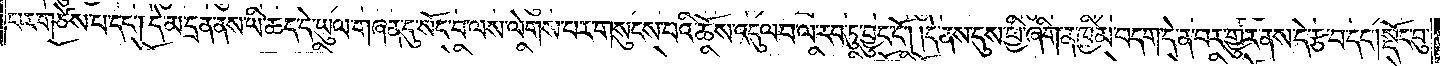པར་གཙེས་པ་དང༌། དེ་མ་དྲན་ནས་ཡི་ཆད་དེ་ཡུལ་གཞན་དུ་སོང་བ་ལས་ལེགས་པར་གསུངས་པའི་ཆོས་འདུལ་བ་ལ་རབ་ཏུ་བྱུང་ངོ༌། །དེ་ནས་དུས་ཕྱི་ཞིག་ན་ཁྱིམ་བདག་དེ་ན་བར་གྱུར་ནས་དེ་རྩ་བ་དང༌། སྡོང་བུ་
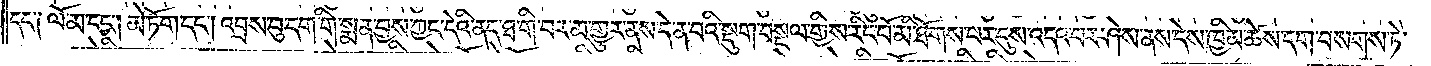དང་༑ ལོ་མ་དང༌། མེ་ཏོག་དང༌། འབྲས་བུ་དག་གི་སྨན་བྱས་ཀྱང་དེའི་ནད་ཐ་གི་བར་མ་གྱུར་ནས་དེ་ན་བའི་སྡུག་བསྔལ་གྱིས་རིང་པོ་མི་ཐོགས་པར་དུས་འདའ་བར་ཤེས་ནས་དེས་ཁྱིམ་ཚེས་དག་བསགས་ཏེ་
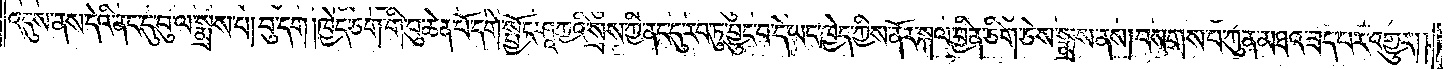འདུས་ནས་དེའི་ནང་དུ་བུ་ལ་སྨྲས་པ། བུ་དག །ཁྱེད་ཅག་གི་བུ་ཆེན་པོ་དགེ་སྦྱོང་ཤཱཀྱའི་སྲས་ཀྱི་ནང་དུ་རབ་ཏུ་བྱུང་བ་དེ་ཡང་ཁྱེད་ཀྱིས་ནོར་སྐལ་བྱིན་ཅིག་ཅེས་སྨྲས་ནས། བསགས་པ་ཀུན་མཐའ་ཟད་པར་འགྱུར། །
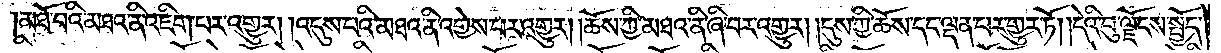མཐོ་བའི་མཐའ་ནི་འཇིག་པར་འགྱུར། །འདུས་པའི་མཐའ་ནི་འགྱེས་པར་འགྱུར། །ཆོས་ཀྱི་མཐའ་ནི་ཞི་བར་འགྱུར། །དུས་ཀྱི་ཆོས་དང་ལྡན་པར་གྱུར་ཏོ། །དེའི་བུ་ལྗོངས་སྤྱོད་
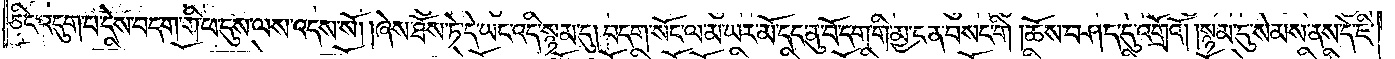ཅིང་འདུག་པ་དེས་བདག་གི་ཕ་དུས་ལས་འདས་སོ། །ཞེས་ཐོས་ཏེ་དེ་ཡང་འདི་སྙམ་དུ། བདག་སོང་ལ་མ་ཡར་མོ་དང་ནུ་བོ་དག་གི་མྱ་ངན་བསང་གི །ཆོས་བཤད་དུ་འགྲོའོ། །སྙམ་དུ་སེམས་ནས་དེ་ཇི་
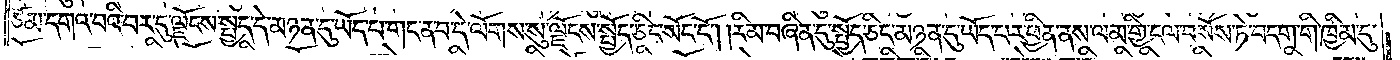ཙམ་དགའ་བའི་བར་དུ་ལྗོངས་སྤྱད་དེ་མཉན་དུ་ཡོད་པ་གང་ན་བ་དེ་ལོགས་སུ་ལྗོངས་སྤྱོད་ཅིང་སོང་ངོ༌། །རིམ་བཞིན་དུ་སྤྱོད་ཅིང་མཉན་དུ་ཡོད་པར་ཕྱིན་ནས་ལམ་གྱི་ངལ་བསོས་ཏེ་བདག་གི་ཁྱིམ་དུ་
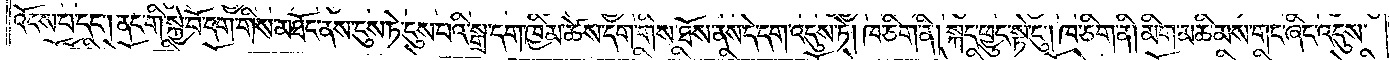འོངས་པ་དང༌། ནང་གི་སྐྱེ་བོ་དག་གིས་མཐོང་ནས་ངུས་ཏེ་དུས་པའི་སྒྲ་དག་ཁྱིམ་ཚེས་དག་གིས་ཐོས་ནས་དེ་དག་འདུས་ཏེ། ཁ་ཅིག་ནི། སྐད་ཕྱུང་སྟེ་ངུ༌། །ཁ་ཅིག་ནི། མིག་མཆི་མས་གང་ཞིང་འདུས་
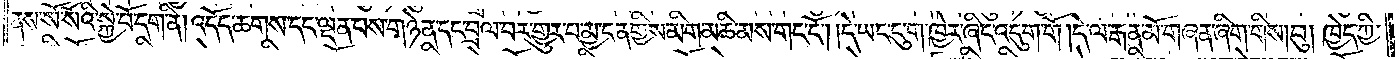ནས་སོ་སོའི་སྐྱེ་བོ་དག་ནི། འདོད་ཆགས་དང་ལྡན་པས་གཉེན་དང་བྲལ་བར་གྱུར་པ་མྱ་ངན་གྱིས་མིག་མཆི་མས་གང་ངོ༌། །དེ་ཡང་དུ་ག་ཁྱེར་ཞིང་འདུག་གོ །དེ་ལ་རྒན་མོ་གཞན་ཞིག་གིས། བུ། ཁྱེད་ཀྱི་
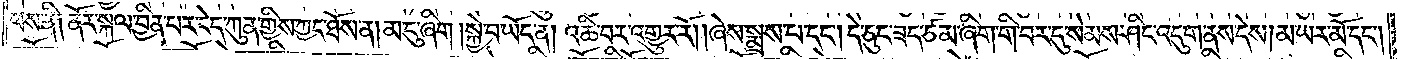ཕས་ནི༑ ནོར་སྐལ་བྱིན་པར་ངེད་ཀུན་གྱིས་ཀྱང་ཐོས་ན། མ་ངུ་ཞིག །སྐྱེ་བ་ཡོད་ན། འཆི་བར་འགྱུར་རོ། །ཞེས་སྨྲས་པ་དང༌། དེ་ཅུང་ཟད་ཙམ་ཞིག་གི་བར་དུ་སེམས་ཤིང་འདུག་ནས་དེས། མ་ཡར་མོ་དང༌།
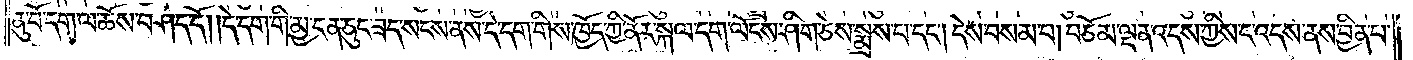ནུ་བོ་དག་ལ་ཆོས་བཤད་དོ། །དེ་དག་གི་མྱ་ངན་ཅུང་ཟད་སངས་ནས་དེ་དག་གིས་ཁྱོད་ཀྱི་ནོར་སྐལ་དག་ལོངས་ཤིག་ཅེས་སྨྲས་པ་དང༌། དེས་བསམ་པ། བཅོམ་ལྡན་འདས་ཀྱིས་ང་འདས་ནས་བྱིན་པ་
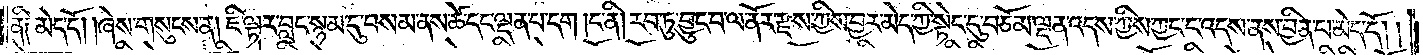ནི༑ མེད་དོ། །ཞེས་གསུངས་ན། ཇི་ལྟར་བླང་སྙམ་དུ་བསམ་ནས་ཚེ་དང་ལྡན་པ་དག །ང་ནི། རབ་ཏུ་བྱུང་བ་ལ་ནོར་རྫས་ཀྱིས་བྱར་མེད་ཀྱི་སྟེང་དུ་བཅོམ་ལྡན་འདས་ཀྱིས་ཀྱང་ང་འདས་ནས་བྱིན་པ་མེད་དོ། །
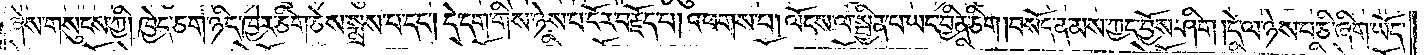ཞེས་གསུངས་ཀྱི། ཁྱེད་ཅག་ཉིད་ཁྱེར་ཅིག་ཅེས་སྨྲས་པ་དང༌། དེ་དག་གིས་ཉེས་པ་ངོར་བརྗོད་པ། འཕགས་པ། ལོངས་ལ་སྦྱིན་པ་ཡང་བྱིན་ཅིག །བསོད་ནམས་ཀྱང་བྱོས་ཤིག །དེ་ལ་ཉེས་པ་ཅི་ཞིག་ཡོད་
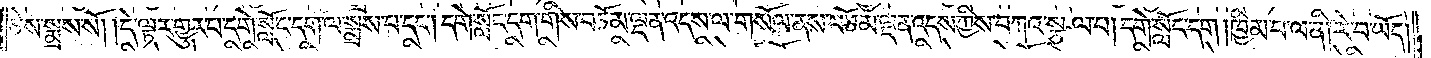ཅེས་སྨྲས་སོ། །དེ་ལྟར་གྱུར་པ་དགེ་སློང་དག་ལ་སྨྲས་པ་དང༌། དགེ་སློང་དག་གིས་བཅོམ་ལྡན་འདས་ལ་གསོལ་ནས་བཅོམ་ལྡན་འདས་ཀྱིས་བཀའ་སྩལ་པ། དགེ་སློང་དག །ཁྱིམ་པ་ལ་ནི། རེ་བ་ཡོད།
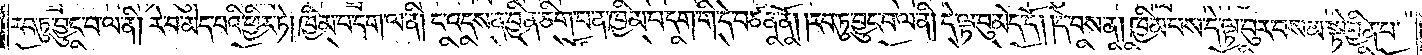རབ་ཏུ་བྱུང་བ་ལ་ནི། རེ་བ་མེད་པའི་ཕྱིར་ཏེ། ཁྱིམ་བདག་ལ་ནི། ང་འདས་ན་བྱིན་ཅིག་པ་ན་ཁྱིམ་བདག་གི་དེ་བཙན་ནོ། །རབ་ཏུ་བྱུང་བ་ལ་ནི། དེ་ལྟ་བུ་མེད་དོ། །དེ་བས་ན། ཁྱིམ་པས་དེ་ལྟ་བུར་བསམ་སྟེ་བྱིན་པ་
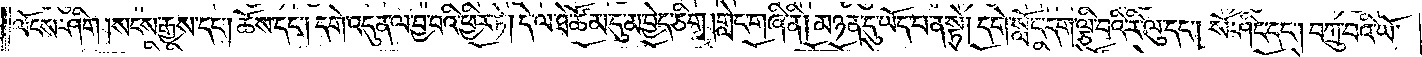ལོངས་ཤིག །སངས་རྒྱས་དང༌། ཆོས་དང༌། དགེ་འདུན་ལ་བྱ་བའི་ཕྱིར་ཏེ། དེ་ལ་ཐེ་ཚོམ་དུ་མ་བྱེད་ཅིག །གླེང་གཞི་ནི། མཉན་དུ་ཡོད་པ་ན་སྟེ། དགེ་སློང་དག་ལྕི་བའི་རི་ལུ་དང༌། སོ་ཤིང་དང༌། བཀྲུ་བའི་ཡོ་
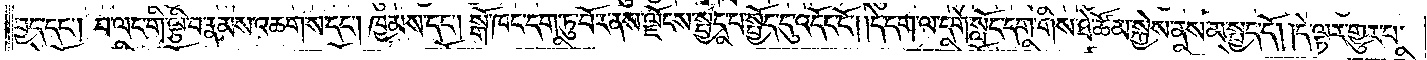བྱད་དང༌། བ་ལང་གི་ལྕི་བ་རྣམས་འཆགས་དང༌། ཁྱམས་དང༌། སྒོ་ཁང་དག་ཏུ་བོར་ནས་ལྗོངས་སྤྱད་པ་སྤྱོད་དུ་འདོང་ངོ༌། །དེ་དག་ལ་དགེ་སློང་དག་གིས་ཐེ་ཚོམ་སྐྱེས་ནས་མ་སྤྱོད་དོ། །དེ་ལྟར་གྱུར་པ་
